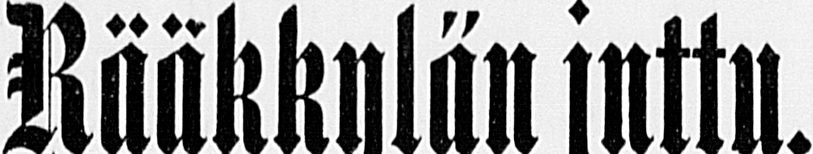Rääkkylän juttu.
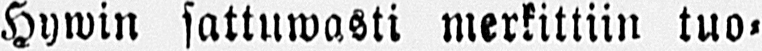Hywin sattuwasti merkittiin tuo-
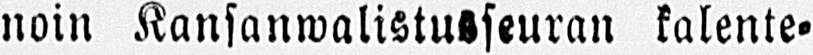noin Kansanwalistusseuran kalente-
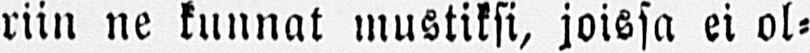riin ne kunnat mustiksi, joissa ei ol-
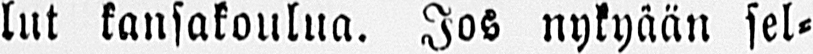lut kansakoulua. Jos nykyään sel-
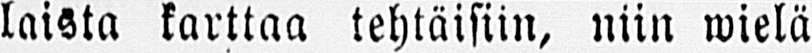laista karttaa tehtäisiin, niin wielä
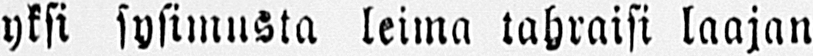yksi sysimusta leima tahraisi laajan
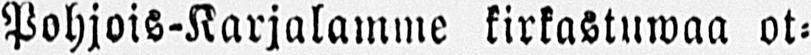Pohjois-Karjalamme kirkastuwaa ot-
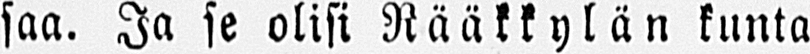saa. Ja se olisi Rääkkylän kunta
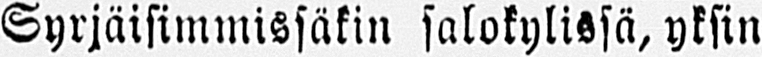Syrjäisimmissäkin salokylissä, yksin
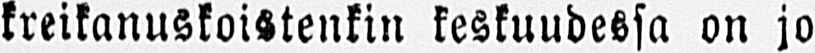kreikanuskoistenkin keskuudessa on jo
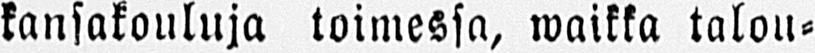kansakouluja toimessa, waikka talou-
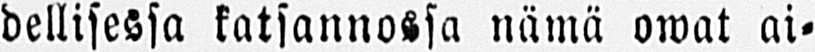dellisessa katsannossa nämä owat ai-
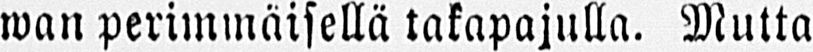wan perimmäisellä takapajulla. Mutta
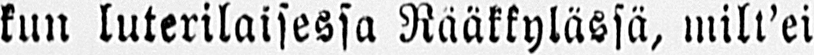kun luterilaisessa Rääkkylässä, milt’ei
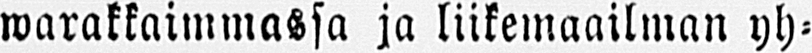warakkaimmassa ja liikemaailman yh-
